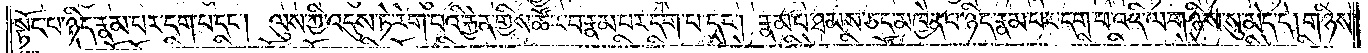སྟོང་པ་ཉིད་རྣམ་པར་དག་པ་དང༌། ལུས་ཀྱི་འདུས་ཏེ་རེག་པའི་རྐྱེན་གྱིས་ཚོར་བ་རྣམ་པར་དག་པ་དང༌། རྣམ་པ་ཐམས་ཅད་མཁྱེན་པ་ཉིད་རྣམ་པར་དག་པ་འདི་ལ་གཉིས་སུ་མེད་དེ། གཉིས་
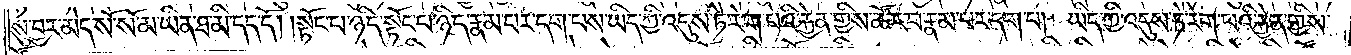སུ་བྱར་མེད་སོ་སོ་མ་ཡིན་ཐ་མི་དད་དོ། །སྟོང་པ་ཉིད་སྟོང་པ་ཉིད་རྣམ་པར་དག་པས་ཡིད་ཀྱི་འདུས་ཏེ་རེག་པའི་རྐྱེན་གྱིས་ཚོར་བ་རྣམ་པར་དག་པ། ཡིད་ཀྱི་འདུས་ཏེ་རེག་པའི་རྐྱེན་གྱིས་
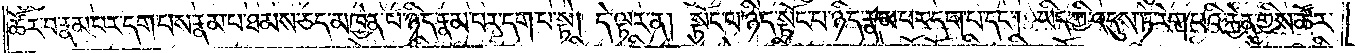ཚོར་བ་རྣམ་པར་དག་པས་རྣམ་པ་ཐམས་ཅད་མཁྱེན་པ་ཉིད་རྣམ་པར་དག་པ་སྟེ། དེ་ལྟར་ན། སྟོང་པ་ཉིད་སྟོང་པ་ཉིད་རྣམ་པར་དག་པ་དང༌། ཡིད་ཀྱི་འདུས་ཏེ་རེག་པའི་རྐྱེན་གྱིས་ཚོར་
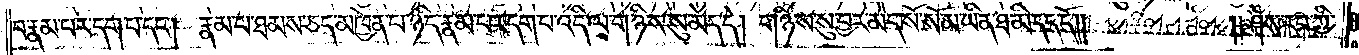བ་རྣམ་པར་དག་པ་དང༌། རྣམ་པ་ཐམས་ཅད་མཁྱེན་པ་ཉིད་རྣམ་པར་དག་པ་འདི་ལ་གཉིས་སུ་མེད་དེ། གཉིས་སུ་བྱར་མེད་སོ་སོ་མ་ཡིན་ཐ་མི་དད་དོ༎<gap>༎ཤེས་རབ་ཀྱི་
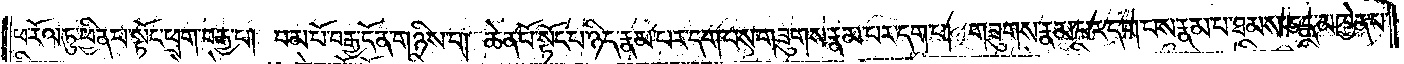ཕ་རོལ་ཏུ་ཕྱིན་པ་སྟོང་ཕྲག་བརྒྱ་པ། །བམ་པོ་བརྒྱ་དོན་གཅིག་པ། །ཆེན་པོ་སྟོང་པ་ཉིད་རྣམ་པར་དག་པས་གཟུགས་རྣམ་པར་དག་པ། གཟུགས་རྣམ་པར་དག་པས་རྣམ་པ་ཐམས་ཅད་མཁྱེན་པ་
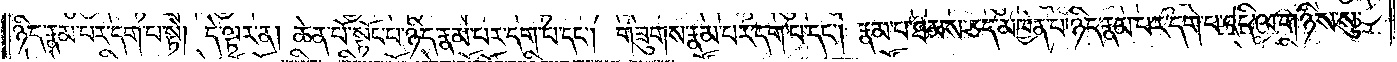ཉིད་རྣམ་པར་དག་པ་སྟེ། དེ་ལྟར་ན། ཆེན་པོ་སྟོང་པ་ཉིད་རྣམ་པར་དག་པ་དང༌། གཟུགས་རྣམ་པར་དག་པ་དང༌། རྣམ་པ་ཐམས་ཅད་མཁྱེན་པ་ཉིད་རྣམ་པར་དག་པ་འདི་ལ་གཉིས་སུ་
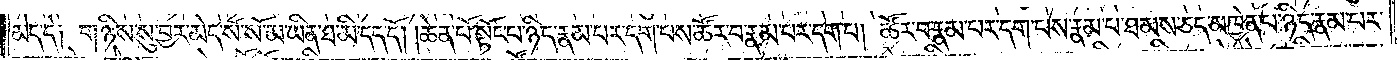མེད་དེ༑ གཉིས་སུ་བྱར་མེད་སོ་སོ་མ་ཡིན་ཐ་མི་དད་དོ། །ཆེན་པོ་སྟོང་པ་ཉིད་རྣམ་པར་དག་པས་ཚོར་བ་རྣམ་པར་དག་པ། ཚོར་བ་རྣམ་པར་དག་པས་རྣམ་པ་ཐམས་ཅད་མཁྱེན་པ་ཉིད་རྣམ་པར་
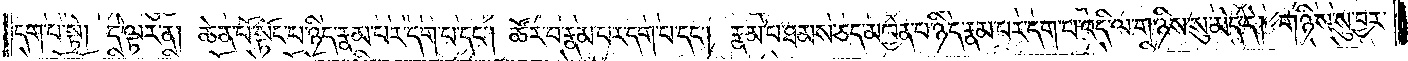དག་པ་སྟེ། དེ་ལྟར་ན། ཆེན་པོ་སྟོང་པ་ཉིད་རྣམ་པར་དག་པ་དང༌། ཚོར་བ་རྣམ་པར་དག་པ་དང༌། རྣམ་པ་ཐམས་ཅད་མཁྱེན་པ་ཉིད་རྣམ་པར་དག་པ་འདི་ལ་གཉིས་སུ་མེད་དེ། གཉིས་སུ་བྱར་
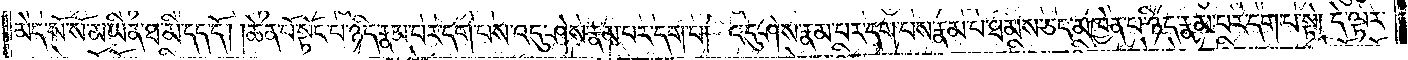མེད་སོ་སོ་མ་ཡིན་ཐ་མི་དད་དོ། །ཆེན་པོ་སྟོང་པ་ཉིད་རྣམ་པར་དག་པས་འདུ་ཤེས་རྣམ་པར་དག་པ། འདུ་ཤེས་རྣམ་པར་དག་པས་རྣམ་པ་ཐམས་ཅད་མཁྱེན་པ་ཉིད་རྣམ་པར་དག་པ་སྟེ། དེ་ལྟར་
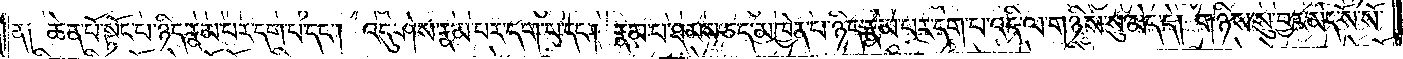ན༑ ཆེན་པོ་སྟོང་པ་ཉིད་རྣམ་པར་དག་པ་དང༌། འདུ་ཤེས་རྣམ་པར་དག་པ་དང༌། རྣམ་པ་ཐམས་ཅད་མཁྱེན་པ་ཉིད་རྣམ་པར་དག་པ་འདི་ལ་གཉིས་སུ་མེད་དེ། གཉིས་སུ་བྱར་མེད་སོ་སོ་
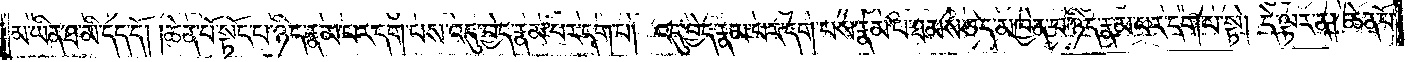མ་ཡིན་ཐ་མི་དད་དོ། །ཆེན་པོ་སྟོང་པ་ཉིད་རྣམ་པར་དག་པས་འདུ་བྱེད་རྣམ་པར་དག་པ། འདུ་བྱེད་རྣམ་པར་དག་པས་རྣམ་པ་ཐམས་ཅད་མཁྱེན་པ་ཉིད་རྣམ་པར་དག་པ་སྟེ། དེ་ལྟར་ན། ཆེན་པོ་
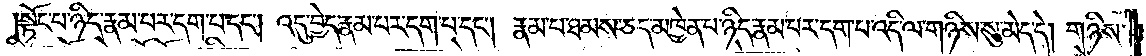སྟོང་པ་ཉིད་རྣམ་པར་དག་པ་དང༌། འདུ་བྱེད་རྣམ་པར་དག་པ་དང༌། རྣམ་པ་ཐམས་ཅད་མཁྱེན་པ་ཉིད་རྣམ་པར་དག་པ་འདི་ལ་གཉིས་སུ་མེད་དེ། གཉིས་
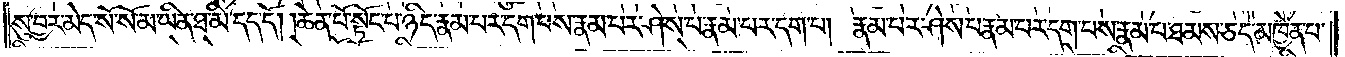སུ་བྱར་མེད་སོ་སོ་མ་ཡིན་ཐ་མི་དད་དོ། །ཆེན་པོ་སྟོང་པ་ཉིད་རྣམ་པར་དག་པས་རྣམ་པར་ཤེས་པ་རྣམ་པར་དག་པ། རྣམ་པར་ཤེས་པ་རྣམ་པར་དག་པས་རྣམ་པ་ཐམས་ཅད་མཁྱེན་པ་
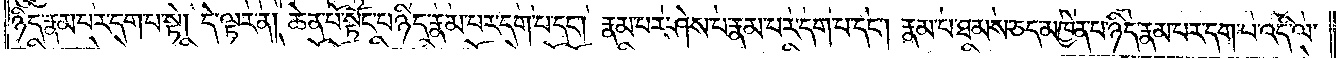ཉིད་རྣམ་པར་དག་པ་སྟེ། དེ་ལྟར་ན། ཆེན་པོ་སྟོང་པ་ཉིད་རྣམ་པར་དག་པ་དང༌། རྣམ་པར་ཤེས་པ་རྣམ་པར་དག་པ་དང༌། རྣམ་པ་ཐམས་ཅད་མཁྱེན་པ་ཉིད་རྣམ་པར་དག་པ་འདི་ལ་
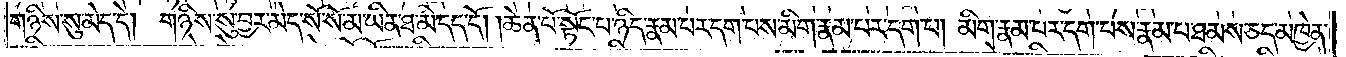གཉིས་སུ་མེད་དེ། གཉིས་སུ་བྱར་མེད་སོ་སོ་མ་ཡིན་ཐ་མི་དད་དོ། །ཆེན་པོ་སྟོང་པ་ཉིད་རྣམ་པར་དག་པས་མིག་རྣམ་པར་དག་པ། མིག་རྣམ་པར་དག་པས་རྣམ་པ་ཐམས་ཅད་མཁྱེན་
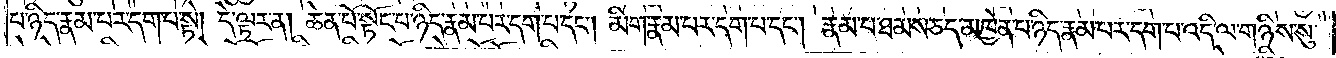པ་ཉིད་རྣམ་པར་དག་པ་སྟེ། དེ་ལྟར་ན། ཆེན་པོ་སྟོང་པ་ཉིད་རྣམ་པར་དག་པ་དང༌། མིག་རྣམ་པར་དག་པ་དང༌། རྣམ་པ་ཐམས་ཅད་མཁྱེན་པ་ཉིད་རྣམ་པར་དག་པ་འདི་ལ་གཉིས་སུ་
